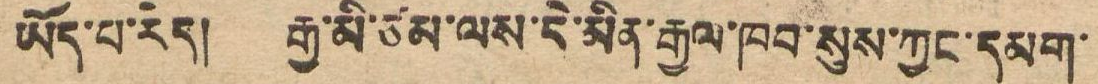ཡོད་པ་རེད། རྒྱ་མི་ཙམ་ལས་དེ་མིན་རྒྱལ་ཁབ་སུས་ཀྱང་དམག་
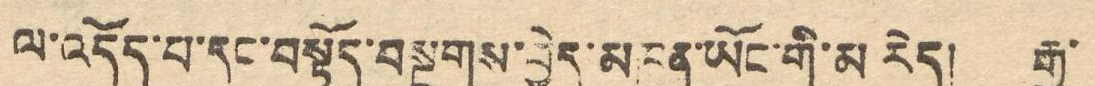ལ་འདོད་པ་དང་བསྟོད་བསྔགས་ཕྱེད་མཁན་ཡོང་གི་མ་རེད། རྒྱ་
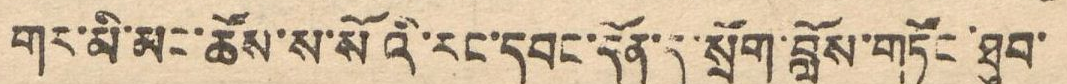གར་མི་མང་ཚོས་ས་སོའི་རང་དབང་དོན་དུ་སྲོག་བློས་གཏོང་ཐུབ་
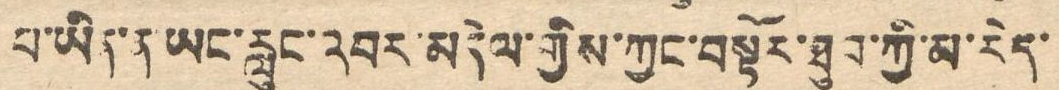པ་ཡིན་ན་ཡང་རླུང་འབར་མདེལ་གྱིས་ཀྱང་བསྟོར་ཐུབ་ཀྱི་མ་རེད་
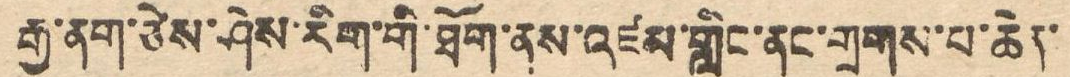རྒྱ་ནག་ཅེས་ཤེས་རིག་གི་ཐོག་ནས་འཛམ་གླིང་ནང་གྲགས་པ་ཆེན་
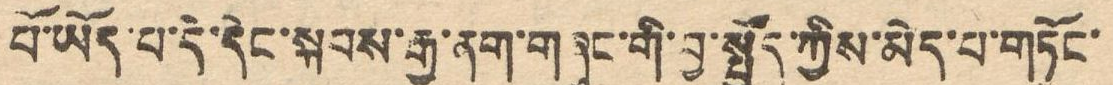པོ་ཡོད་པ་དེ་དེང་སྐབས་རྒྱ་གར་གཞུང་གི་བྱ་སྤྱོད་ཀྱིས་མེད་པ་གཏོང་
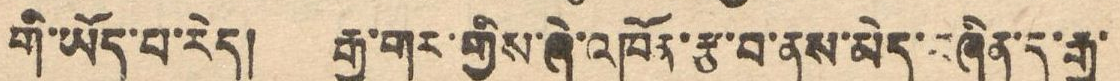གི་ཡོད་པ་རེད། རྒྱ་གར་གྱིས་ཞེ་འཁོན་རྩ་བ་ནས་མེད་བཞིན་དུ་རྒྱ་
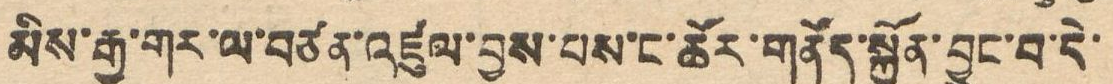མིས་རྒྱ་གར་ལ་བཙན་འཛུལ་བྱས་པས་ང་ཚོར་གནོད་སྐྱོན་བྱུང་བ་དེ་
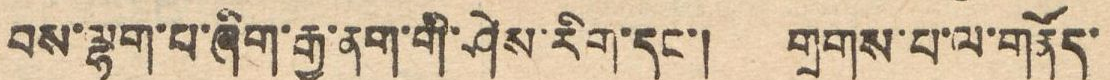པས་ལྷག་པ་ཞིག་རྒྱ་ནག་གི་ཤེས་རིག་དང་། གྲགས་པ་ལ་གནོད་
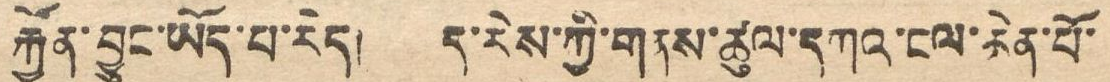རྐྱོན་བྱུང་ཡོད་པ་རེད། ད་རེས་ཀྱིས་གནས་ཚུལ་དཀའ་ངལ་ཆེན་པོ་
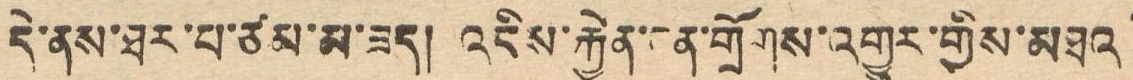དེ་ནས་ཐར་པ་ཙམ་མ་ཟད། འདིས་རྐྱེན་ངན་གྲོགས་འགྱུར་གྱིས་མཐའ་
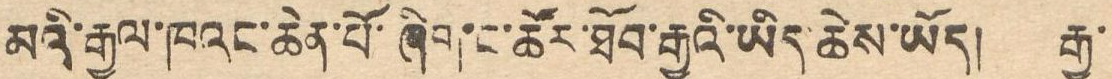མའི་རྒྱལ་ཁའང་ཆེན་པོ་ཞིག་ང་ཚོར་ཐོབ་རྒྱུའི་ཡིད་ཆེས་ཡོད། རྒྱ་
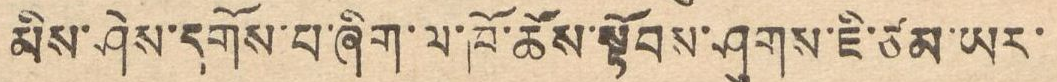མིས་ཤེས་དགོས་པ་ཞིག་ལ་ཁོ་ཚོས་སྟོབས་ཤུགས་ཇི་ཙམ་ཡར་
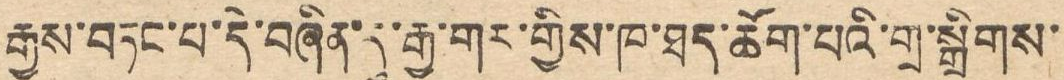རྒྱས་བཏང་པ་དེ་བཞིན་དུ་རྒྱ་གར་གྱིས་ཁ་ཐད་ཆོག་པའི་གྲ་སྒྲིགས་
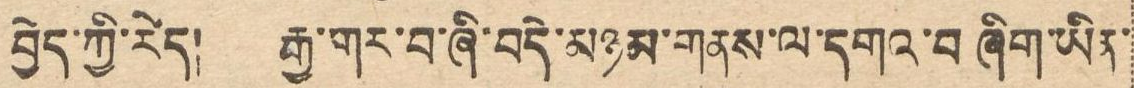བྱེད་ཀྱི་རེད། རྒྱ་གར་བ་ཞི་བདེ་མཉམ་གནས་ལ་དགའ་བཞིག་ཡིན་
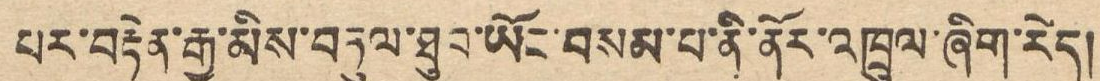པར་བརྟེན་རྒྱ་མིས་བཏུས་ཐུབ་ཡོང་བསམ་པ་ནི་ནོར་འཁྲུལ་ཞིག་རེད།
